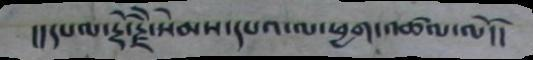།།དཔལ་རྡོ་རྗེ་སེམས་དཔའ་ལ་ཕྱག་འཚལ་ལོ།།
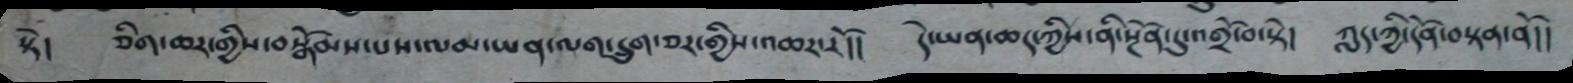སྟེ། ཅིག་ཆར་གྱིས་བསྒོམས་པས་ལམ་ཡན་ལག་དྲུག་ཅར་གྱིས་འཆར་རོ།། དེ་ཡན་ཆད་ཀྱིས་ནི་སྔོན་དུ་འགྲོ་བ་སྟེ། ཀླད་ཀྱི་དོན་བསྟན་ནོ།།
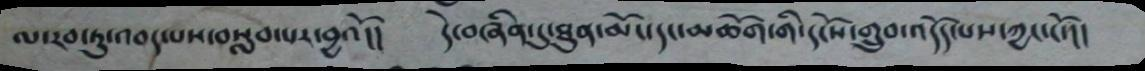ལ་རབ་ཏུ་འབད་པས་བསླབ་པར་བྱའོ།། དེ་བཞིན་དུ་ཐུན་མོང་དང་མཆོག་གི་དངོས་གྲུབ་འདོད་པས་ཀྱང་ངོ་།།
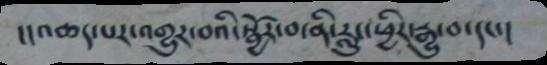།།འཆད་པར་འགྱུར་བའི་སྦྱོར་བ་ནི་རླུང་ཕྱིར་རྒྱུ་བ་དང་།
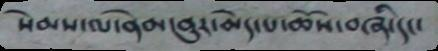སེམས་ལ་ནེམ་ནུར་མེད་པ་ཆོས་བཞི་དང་
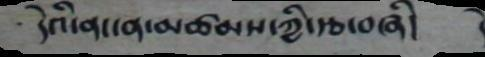དེའི་ནང་ན་མཚམས་ཀྱི་རྩ་བཞི།
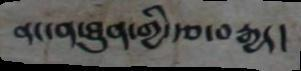ནང་ན་ཐུན་གྱི་རྩ་བརྒྱད།
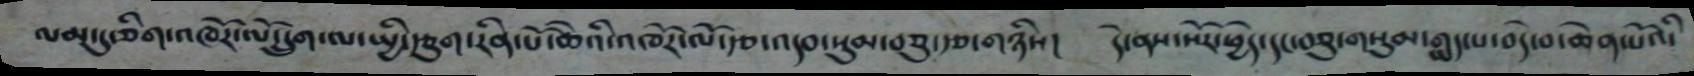ལམ་དུ་ཅིག་འཁོར་ལོ་དྲུག་ལ་སྤྱི་རྩུག་རིན་པོ་ཆེའི་འཁོར་ལོ་རྩ་འདབ་སུམ་བཅུ་རྩ་གཉིས། དེ་ནས་སོར་ཕྱེད་དང་བཅུ་གསུམ་གླད་པ་བདེ་བ་ཆེན་པོའི་
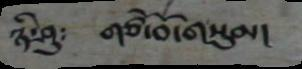ཉི་ཤུ༴ གཙོ་བོ་གསུམ།
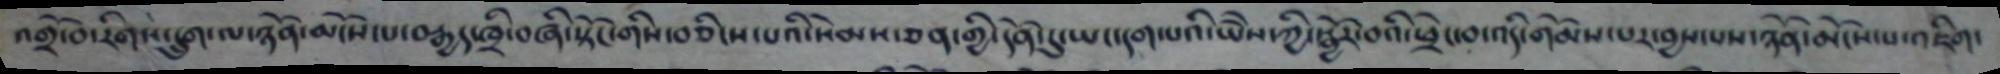འགྲོ་བ་རིགས་དྲུག་ལ་ཉོན་མོངས་པ་བརྒྱད་ཁྲི་བཞི་སྟོང་གིས་བཅིངས་པའི་སེམས་ཅན་གྱི་དོན་དུ་ཡང་དག་པའི་ཡཻས་ཀྱི་སྦྱོར་བའི་ཕྲེང་བ་འདི་གོམས་པར་བྱས་པས་ཉོན་མོངས་པ་འཇིག་
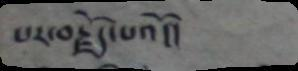པར་བརྗོད་པའོ།།
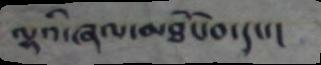ལྷའི་ཞལ་མཐོང་བ་དང་།
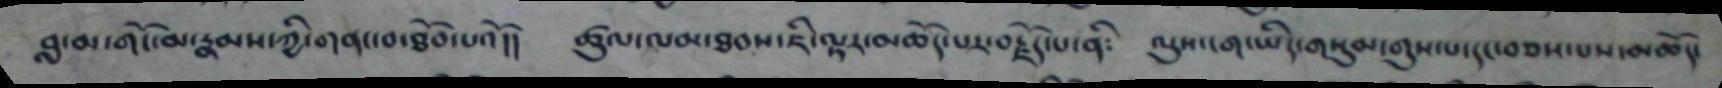བླ་མ་གོང་མ་རྣམས་ཀྱི་གནང་བ་ཐོབ་པའོ།། ཚུལ་ལམ་ཐབས་ཇི་ལྟར་མཆོད་པར་བརྗོད་པ་ནི༴ ལུས་ངག་ཡིད་གསུམ་གུས་པ་དང་བཅས་པས་མཆོད་
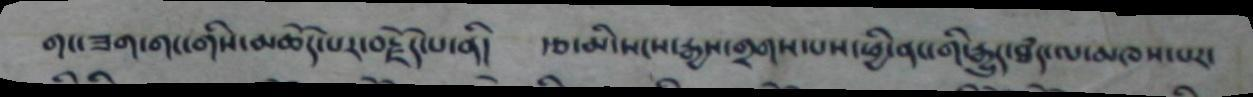གང་ཟག་གང་གིས་མཆོད་པར་བརྗོད་པ་ནི། རྩ་མི་སངས་རྒྱས་གྲགས་པས་ཕྱི་ནང་གི་རྒྱུད་ཐཾད་ལ་མཁས་པར་
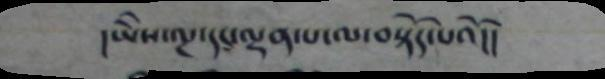།ཡཻས་ལྔ་དང་ལྡན་པ་ལ་བསྟོད་པའོ།།
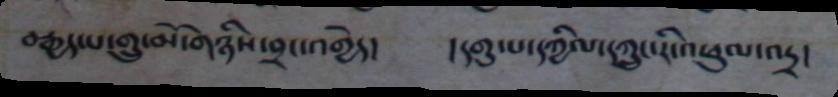བརྒྱད་པ་གྲུ་མོ་གཉིས་བྲང་འགྱེད། །དགུ་པ་དཀྱིལ་དཀྲུང་རི་འཕུལ་འདྲ།
